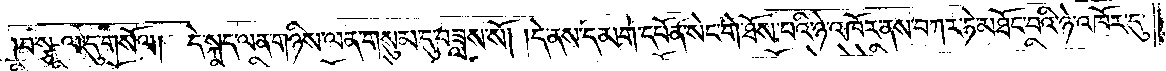བསྩལ་དུ་གསོལ། དེ་སྐད་ལན་གཉིས་ལན་གསུམ་དུ་བཟླས་སོ། །དེ་ནས་དམག་དཔོན་སེང་གེ་ཐོས་པའི་ཉེ་འཁོར་ནས་བཀར་ཏེ་མཐོང་བའི་ཉེ་འཁོར་དུ་
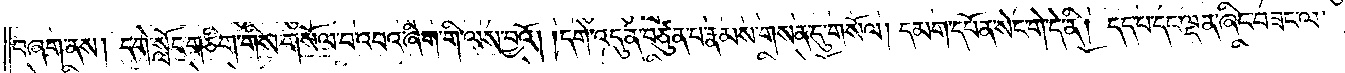བཞག་ནས། དགེ་སློང་གཅིག་གིས་གསོལ་བ་འབའ་ཞིག་གི་ལས་བྱའོ། །དགེ་འདུན་བཙུན་པ་རྣམས་གསན་དུ་གསོལ། དམག་དཔོན་སེང་གེ་དེ་ནི། དད་པ་དང་ལྡན་ཞིང་བཟང་ལ་
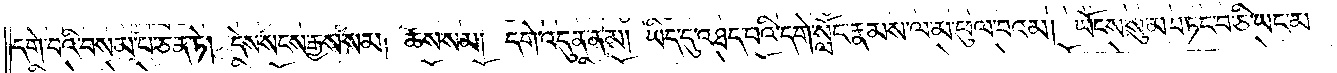དགེ་བའི་བསམ་པ་ཅན་ཏེ། དེས་སངས་རྒྱས་སམ། ཆོས་སམ། དགེ་འདུན་ནམ། ཡིད་དུ་འཐད་པའི་དགེ་སློང་རྣམས་ལ་མ་ཕུལ་བའམ། ཡོངས་སུ་མ་བཏང་བ་ཅི་ཡང་མ་
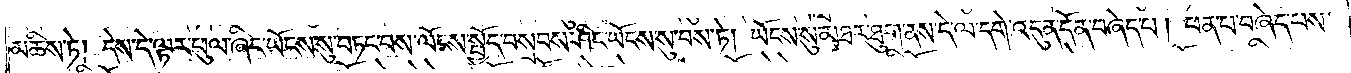མཆིས་ཏེ། དེས་དེ་ལྟར་ཕུལ་ཞིང་ཡོངས་སུ་བཏང་བས་ལོངས་སྤྱོད་བསྲབས་ཤིང་ཡོངས་སུ་བས་ཏེ། ཡོངས་སུ་མཐར་ཐུག་ནས་དེ་ལ་དགེ་འདུན་དོན་བཞེད་པ། ཕན་པ་བཞེད་པས་
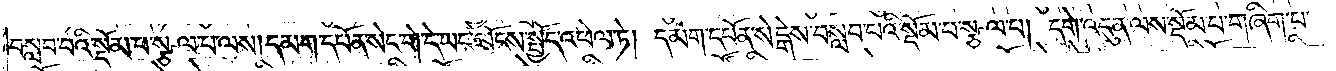བསླབ་པའི་སྡོམ་པ་སྩལ་པ་ལས། དམག་དཔོན་སེང་གེ་དེ་ཡང་ལོངས་སྤྱོད་འཕེལ་ཏེ། དམག་དཔོན་སེངྒེས་བསླབ་པའི་སྡོམ་པ་སྩལ་པ། དགེ་འདུན་ལས་སྡོམ་པ་གཞིག་པ་
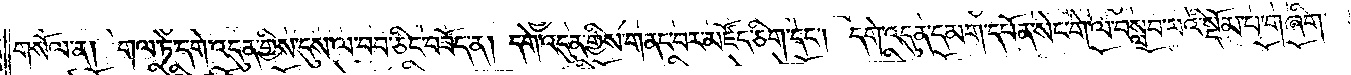གསོལ་ན། གལ་ཏེ་དགེ་འདུན་གྱིས་དུས་ལ་བབ་ཅིང་བཟོད་ན། དགེ་འདུན་གྱིས་གནང་བར་མཛོད་ཅིག་དང༌། དགེ་འདུན་དམག་དཔོན་སེང་གེ་ལ་བསླབ་པའི་སྡོམ་པ་གཞིག་
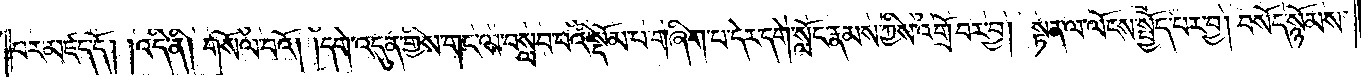པར་མཛད་དོ། །འདི་ནི། གསོལ་བའོ། །དགེ་འདུན་གྱིས་གང་ལ་བསླབ་པའི་སྡོམ་པ་གཞིག་པ་དེར་དགེ་སློང་རྣམས་ཀྱིས་འགྲོ་བར་བྱ། སྟན་ལ་ལོངས་སྤྱོད་པར་བྱ། བསོད་སྙོམས་
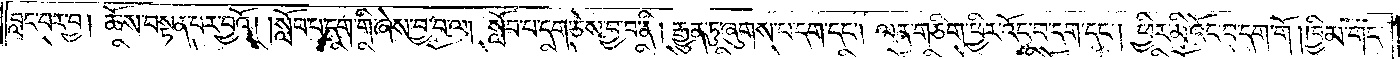བླང་བར་བྱ། ཆོས་བསྟན་པར་བྱའོ། །སློབ་པ་དག་གི་ཞེས་བྱ་བ་ལ། སློབ་པ་དག་ཅེས་བྱ་བ་ནི། རྒྱུན་ཏུ་ཞུགས་པ་དག་དང༌། ལན་གཅིག་ཕྱིར་འོང་བ་དག་དང༌། ཕྱིར་མི་འོང་བ་དག་གོ །ཁྱིམ་གང་
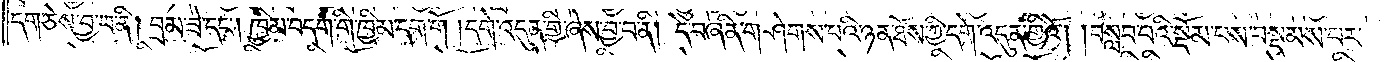དག་ཅེས་བྱ་བ་ནི། བྲམ་ཟེ་དང༌། ཁྱིམ་བདག་གི་ཁྱིམ་དག་གོ །དགེ་འདུན་གྱི་ཞེས་བྱ་བ་ནི། དེ་བཞིན་གཤེགས་པའི་ཉན་ཐོས་ཀྱི་དགེ་འདུན་གྱིའོ། །བསླབ་པའི་སྡོམ་པས་བསྡམས་པར་
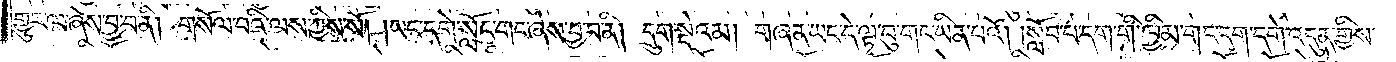གྱུར་ལ་ཞེས་བྱ་བ་ནི། གསོལ་བའི་ལས་ཀྱིས་སོ། །ཡང་དགེ་སློང་གང་ཞེས་བྱ་བ་ནི། དྲུག་སྡེའམ། གཞན་ཡང་དེ་ལྟ་བུ་གང་ཡིན་པའོ། །སློབ་པ་དག་གི་ཁྱིམ་གང་དག་དགེ་འདུན་གྱིས་
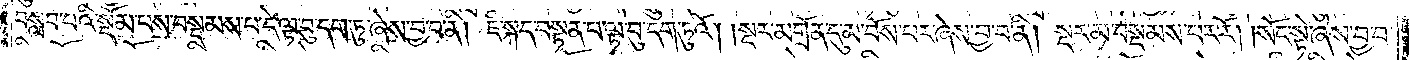བསླབ་པའི་སྡོམ་པས་བསྡམས་པ་དེ་ལྟ་བུ་དག་ཏུ་ཞེས་བྱ་བ་ནི། ཇི་སྐད་བསྟན་པ་ལྟ་བུ་དག་ཏུའོ། །སྔར་མགྲོན་དུ་མ་བོས་པར་ཞེས་བྱ་བ་ནི། སྔར་མ་བསྡམས་པར་རོ། །སོང་སྟེ་ཞེས་བྱ་བ་
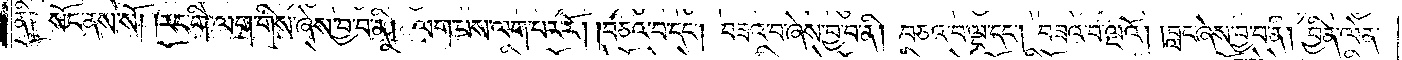ནི། སོང་ནས་སོ། །རང་གི་ལག་གིས་ཞེས་བྱ་བ་ནི། ལག་པས་ལག་པར་རོ། །བཅའ་བ་དང༌། བཟའ་བ་ཞེས་བྱ་བ་ནི། བཅའ་བ་ལྔ་དང༌། བཟའ་བ་ལྔའོ། །བླང་ཞེས་བྱ་བ་ནི། བྱིན་ལེན་
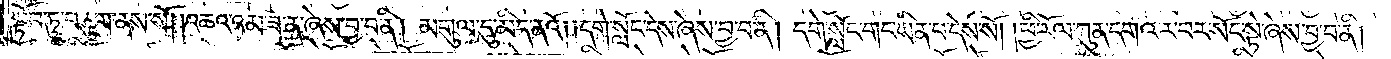སྟོབ་ཏུ་བཅུག་ནས་སོ། །འཆའ་འམ་ཟ་ན་ཞེས་བྱ་བ་ནི། མགུལ་དུ་མིད་ནའོ། །དགེ་སློང་དེས་ཞེས་བྱ་བ་ནི། དགེ་སློང་གང་ཡིན་པ་དེས་སོ། །ཕྱི་རོལ་ཀུན་དགའ་ར་བར་སོང་སྟེ་ཞེས་བྱ་བ་ནི།
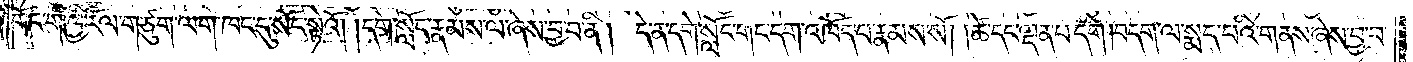གོང་གི་ཕྱི་རོལ་གཙུག་ལག་ཁང་དུ་སོང་སྟེའོ། །དགེ་སློང་རྣམས་ལ་ཞེས་བྱ་བ་ནི། དེ་ན་དགེ་སློང་གང་དག་འཁོད་པ་རྣམས་སོ། །ཚེ་དང་ལྡན་པ་དག །བདག་ལ་སྨད་པའི་གནས་ཞེས་བྱ་བ་
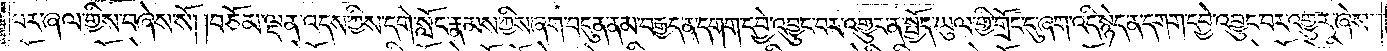པར་ཞལ་གྱིས་བཞེས་སོ། །བཅོམ་ལྡན་འདས་ཀྱིས་དགེ་སློང་རྣམས་ཀྱིས་ཞག་བདུན་ནམ་བརྒྱད་ན་དགག་དབྱེ་འབྱུང་བར་འགྱུར་ན་སྤྱོད་ཡུལ་གྱི་གྲོང་དུ་ཞག་འདི་སྙེད་ན་དགག་དབྱེ་འབྱུང་བར་འགྱུར་ཞེས་
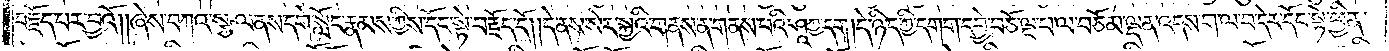བརྗོད་པར་བྱའོ། །ཞེས་བཀའ་སྩལ་ནས་དགེ་སློང་རྣམས་ཀྱིས་དོང་སྟེ་བརྗོད་དོ། །དེ་ནས་སེར་སྐྱའི་གནས་ན་གནས་པའི་ཤཱཀྱ་དག །དེ་ཉིད་ཀྱི་དགག་དབྱེ་བཅོ་ལྔ་པ་ལ་བཅོམ་ལྡན་འདས་ག་ལ་བ་དེར་དོང་སྟེ་ཕྱིན་
